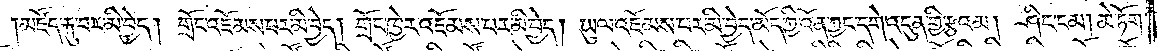མཛོད་རྐུ་བར་མི་བྱེད། གྲོང་འཇོམས་པར་མི་བྱེད། གྲོང་ཁྱེར་འཇོམས་པར་མི་བྱེད། ཡུལ་འཇོམས་པར་མི་བྱེད་མོད་ཀྱི་འོན་ཀྱང་དགེ་འདུན་གྱི་རྩའམ།  ཤིང་ངམ། མེ་ཏོག་
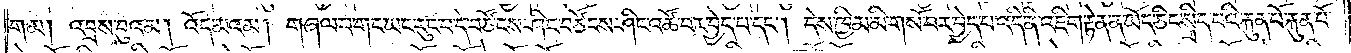གམ། འབྲས་བུའམ། འོད་མའམ། གཞལ་བ་གང་ཡང་རུང་བ་དེ་བཙོངས་ཤིང་བཙོངས་ཤིང་འཚོ་བར་བྱེད་པ་དང༌། དེས་ཁྱིམ་མི་གསོ་བར་བྱེད་པ་འདི་ནི་འཇིག་རྟེན་ན་ཡོད་ཅིང་སྲིད་པའི་རྐུན་པོ་རྐུན་པོ་
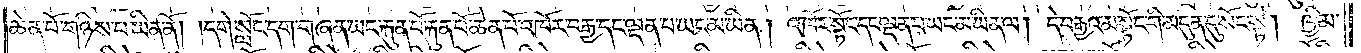ཆེན་པོ་གཉིས་པ་ཡིན་ནོ། །དགེ་སློང་དག་གཞན་ཡང་རྐུན་པོ་རྐུན་པོ་ཆེན་པོ་འཁོར་བརྒྱ་དང་ལྡན་པ་ཡང་མ་ཡིན། འཁོར་སྟོང་དང་ལྡན་པ་ཡང་མ་ཡིན་ལ། དེ་བརྒྱའམ་སྟོང་གི་མདུན་དུ་སོང་སྟེ། ཁྱིམ་
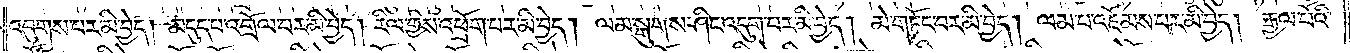འབུགས་པར་མི་བྱེད། མདུད་པ་འགྲོལ་བར་མི་བྱེད། རིལ་གྱིས་འཕྲོག་པར་མི་བྱེད། ལམ་སྒུགས་ཤིང་འདུག་པར་མི་བྱེད། མེ་གཏོང་བར་མི་བྱེད། ལམ་པ་འཇོམས་པར་མི་བྱེད། རྒྱལ་པོའི་
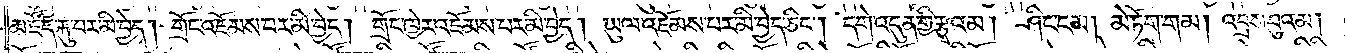མཛོད་རྐུ་བར་མི་བྱེད། གྲོང་འཇོམས་པར་མི་བྱེད། གྲོང་ཁྱེར་འཇོམས་པར་མི་བྱེད། ཡུལ་འཇོམས་པར་མི་བྱེད་ཅིང༌། དགེ་འདུན་གྱི་རྩྭའམ། ཤིང་ངམ། མེ་ཏོག་གམ། འབྲས་བུའམ།
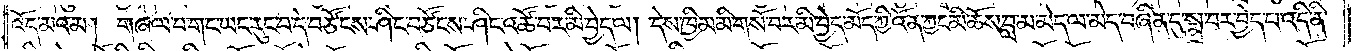འོད་མའམ། གཞལ་བ་གང་ཡང་རུང་བ་དེ་བཙོངས་ཤིང་བཙོངས་ཤིང་འཚོ་བར་མི་བྱེད་ལ། དེས་ཁྱིམ་མི་གསོ་བར་མི་བྱེད་མོད་ཀྱི་འོན་ཀྱང་མི་ཆོས་བླ་མ་མེད་ལ་མེད་བཞིན་དུ་སྨྲ་བར་བྱེད་པ་འདི་ནི་
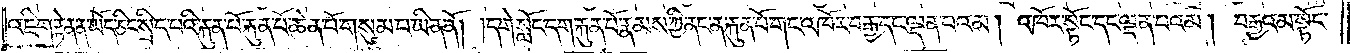འཇིག་རྟེན་ན་ཡོད་ཅིང་སྲིད་པའི་རྐུན་པོ་རྐུན་པོ་ཆེན་པོ་གསུམ་པ་ཡིན་ནོ། །དགེ་སློང་དག་རྐུན་པོ་རྣམས་ཀྱི་ནང་ན་རྐུན་པོ་གང་འཁོར་བརྒྱ་དང་ལྡན་པའམ། འཁོར་སྟོང་དང་ལྡན་པའམ། བརྒྱའམ་སྟོང་
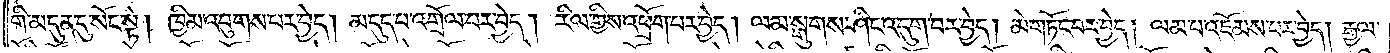གི་མདུན་དུ་སོང་སྟེ། ཁྱིམ་འབུགས་པར་བྱེད། མདུད་པ་འགྲོལ་བར་བྱེད། རིལ་གྱིས་འཕྲོག་པར་བྱེད། ལམ་སྒུགས་ཤིང་འདུག་པར་བྱེད། མེ་གཏོང་བར་བྱེད། ལམ་པ་འཇོམས་པར་བྱེད། རྒྱལ་
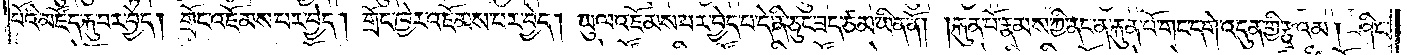པོའི་མཛོད་རྐུ་བར་བྱེད། གྲོང་འཇོམས་པར་བྱེད། གྲོང་ཁྱེར་འཇོམས་པར་བྱེད། ཡུལ་འཇོམས་པར་བྱེད་པ་དེ་ནི་ཅུང་ཟད་ཙམ་ཡིན་ནོ། །རྐུན་པོ་རྣམས་ཀྱི་ནང་ན་རྐུན་པོ་གང་དགེ་འདུན་གྱི་རྩྭའམ། ཤིང་
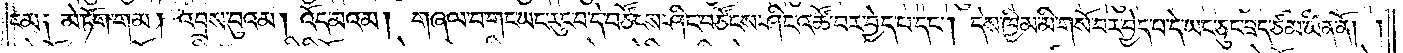ངམ༑ མེ་ཏོག་གམ། འབྲས་བུའམ། འོད་མའམ། གཞལ་བ་གང་ཡང་རུང་བ་དེ་བཙོངས་ཤིང་བཙོངས་ཤིང་འཚོ་བར་བྱེད་པ་དང༌། དེས་ཁྱིམ་མི་གསོ་བར་བྱེད་པ་དེ་ཡང་ཅུང་ཟད་ཙམ་ཡིན་ནོ། །
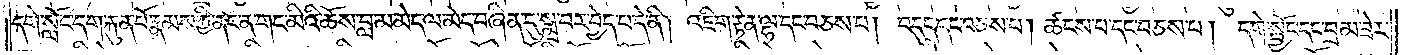དགེ་སློང་དག་རྐུན་པོ་རྣམས་ཀྱི་ནང་ན་གང་མིའི་ཆོས་བླ་མ་མེད་ལ་མེད་བཞིན་དུ་སྨྲ་བར་བྱེད་པ་དེ་ནི། འཇིག་རྟེན་ལྷ་དང་བཅས་པ། བདུད་དང་བཅས་པ། ཚངས་པ་དང་བཅས་པ། དགེ་སྦྱོང་དང་བྲམ་ཟེར་
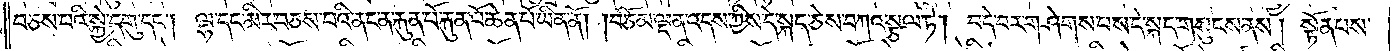བཅས་པའི་སྐྱེ་དགུ་དང༌། ལྷ་དང་མིར་བཅས་པའི་ནང་ན་རྐུན་པོ་རྐུན་པོ་ཆེན་པོ་ཡིན་ནོ། །བཅོམ་ལྡན་འདས་ཀྱིས་དེ་སྐད་ཅེས་བཀའ་སྩལ་ཏེ། བདེ་བར་གཤེགས་པས་དེ་སྐད་གསུངས་ནས། སྟོན་པས་
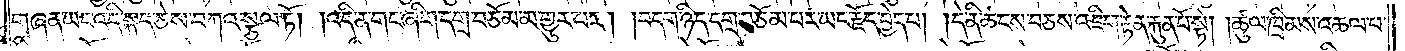གཞན་ཡང་འདི་སྐད་ཅེས་བཀའ་སྩལ་ཏོ། །འདི་ན་གང་ཞིག་དགྲ་བཅོམ་མ་གྱུར་པར། །བདག་ཉིད་དགྲ་བཅོམ་པར་ཡང་རྗོད་བྱེད་པ། །དེ་ནི་ཚངས་བཅས་འཇིག་རྟེན་རྐུན་པོ་སྟེ། །ཚུལ་ཁྲིམས་འཆལ་བ་
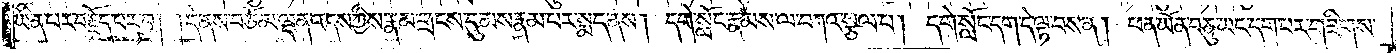ཡིན་པར་བརྗོད་པར་བྱ། །དེ་ནས་བཅོམ་ལྡན་འདས་ཀྱིས་རྣམ་གྲངས་དུ་མས་རྣམ་པར་སྨད་ནས། དགེ་སློང་རྣམས་ལ་བཀའ་སྩལ་པ། དགེ་སློང་དག་དེ་ལྟ་བས་ན། ཕན་ཡོན་བཅུ་ཡང་དག་པར་གཟིགས་
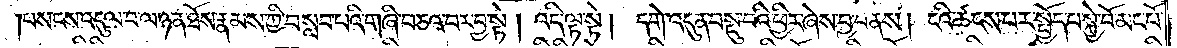།པས་ངས་འདུལ་བ་ལ་ཉན་ཐོས་རྣམས་ཀྱི་བསླབ་པའི་གཞི་བཅའ་བར་བྱ་སྟེ། འདི་ལྟ་སྟེ། དགེ་འདུན་བསྡུ་བའི་ཕྱིར་ཞེས་བྱ་བ་ནས། ངའི་ཚངས་པར་སྤྱོད་པ་སྐྱེ་བོ་མང་པོ་
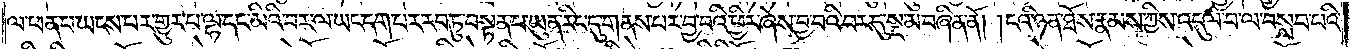ལ་ཕན་པ་ཡངས་པར་གྱུར་པ་ལྷ་དང་མིའི་བར་ལ་ཡང་དག་པར་རབ་ཏུ་བསྟན་པ་ཡུན་རིང་དུ་གནས་པར་བྱ་བའི་ཕྱིར་ཞེས་བྱ་བའི་བར་དུ་སྔ་མ་བཞིན་ནོ། །ངའི་ཉན་ཐོས་རྣམས་ཀྱིས་འདུལ་བ་ལ་བསླབ་པའི་
